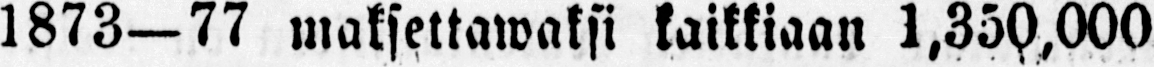1873—77 maksettawaksi kaikkiaan 1,350,000
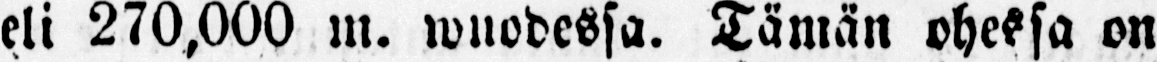eli 270,000 m. wuodessa. Tämän ohessa on
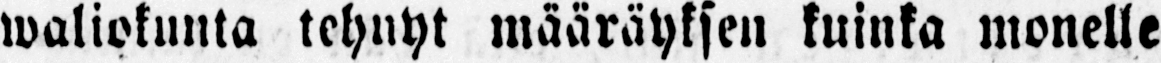waliokunta tehnyt määräyksen kuinka monelle
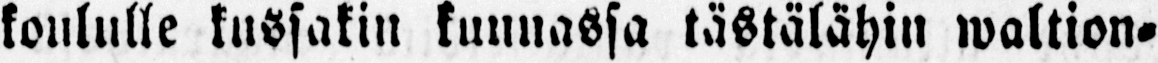koululle kussakin kunnassa tästälähin waltion-
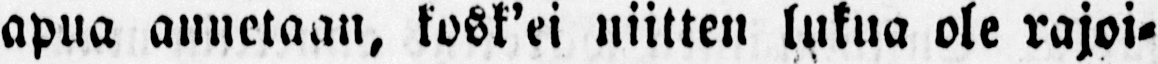apua annetaan, kosk’ei niitten lukua ole rajoi-
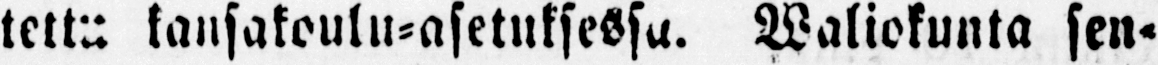tetta kansakoulu-asetuksessa. Waliokunta sen-
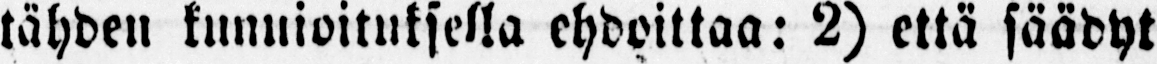tähden kunnioituksella ehdoittaa: 2) että säädyt
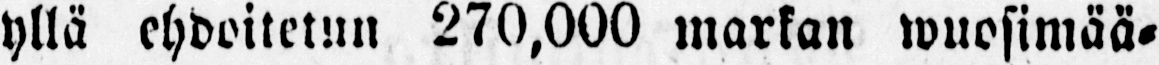yllä ehdoitetun 270,000 markan wuosimää-
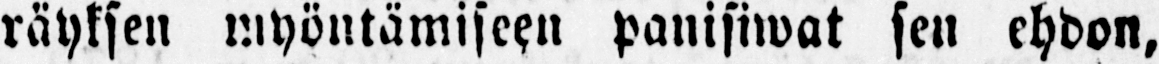räyksen myöntämiseen panisiwat sen ehdon,
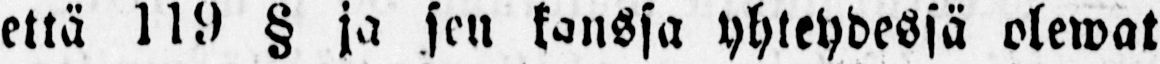että 119 § ja sen kanssa yhteydessä olewat
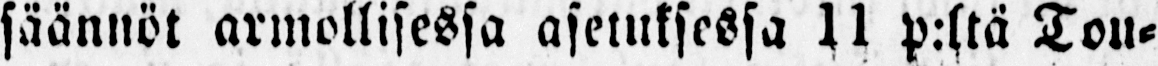säännöt armollisessa asetuksessa 11 p:ltä Tou-
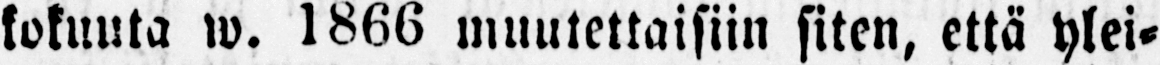kokuuta w. 1866 muutettaisiin siten, että ylei-
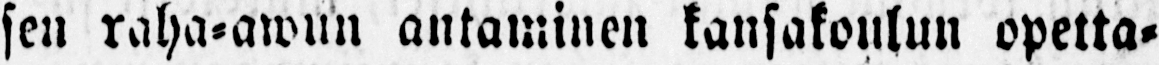sen raha-awun antaminen kansakoulun opetta-
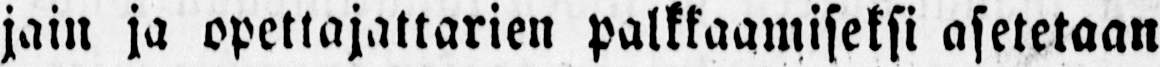jain ja opettajattarien palkkaamiseksi asetetaan
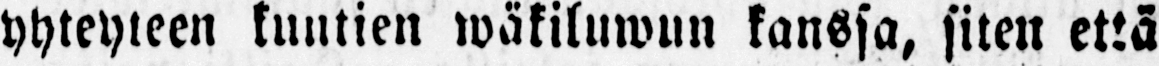yhteyteen kuntien wäkiluwun kanssa, siten että
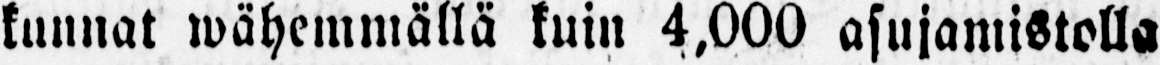kunnat wähemmällä kuin 4,000 asujamistolla
